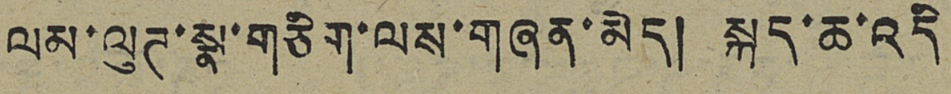ལམ་ལུཊ་སྣ་གཅིག་ལས་གཞན་མེད། སྐད་ཆ་འདི་
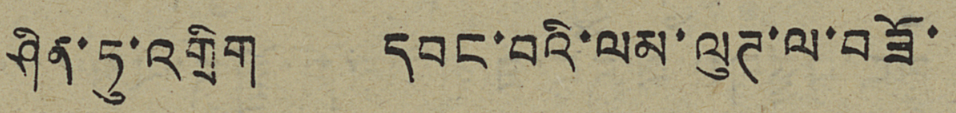ཤིན་ཏུ་འགྲིག དབང་བའི་ལམ་ལུཊ་ལ་བཟོ་
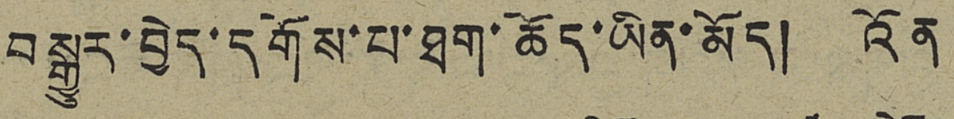བསྒྱུར་བྱེད་དགོས་པ་ཐག་ཆོད་ཡིན་མོད། འོན་
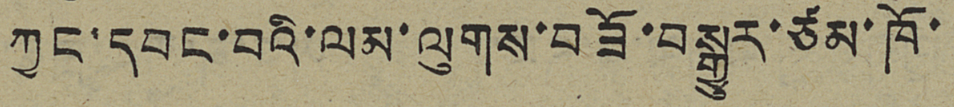ཀྱང་དབང་བའི་ལམ་ལུགས་བཟོ་བསྒྱུར་ཙམ་ཁོ་
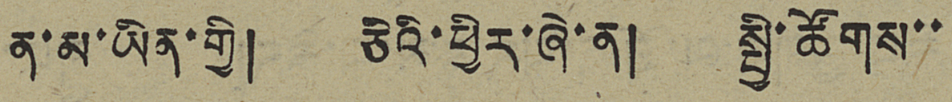ན་མ་ཡིན་གྱི། ཅིའི་ཕྱིར་ཞེ་ན། སྤྱི་ཚོགས་་
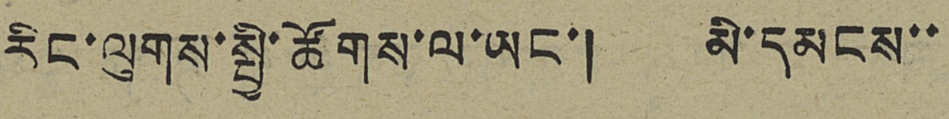རིང་ལུགས་སྤྱི་ཚོགས་ལ་ཡང་། མི་དམངས་་
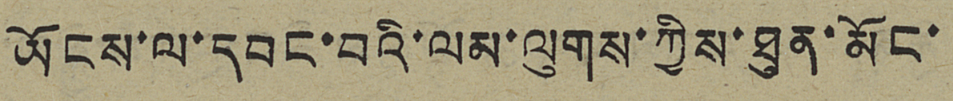ཡོངས་ལ་དབང་བའི་ལམ་ལུགས་ཀྱིས་ཐུན་མོང་
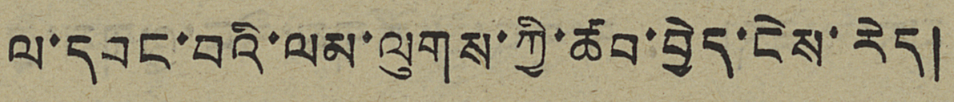ལ་དབང་བའི་ལམ་ལུགས་ཀྱི་ཚབ་བྱེད་ངེས་རེད།
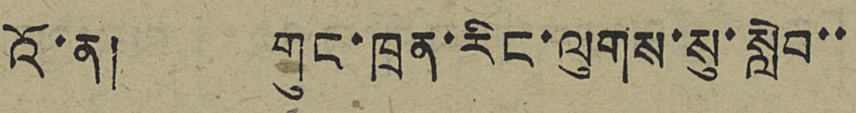འོ་ན། གུང་ཁྲན་རིང་ལུགས་སུ་སླེབ་་
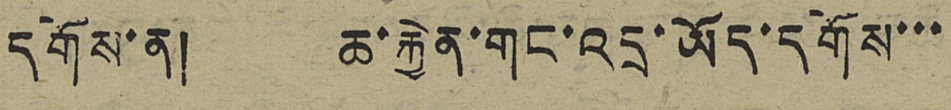དགོས་ན། ཆ་རྐྱེན་གང་འདྲ་ཡོད་དགོས་་་
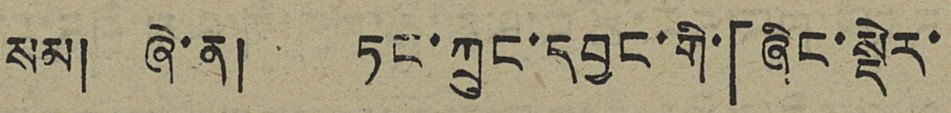སམ། ཞེ་ན། ཏང་ཀྲུང་དབྱང་གི་「ཞིང་སྡེར་
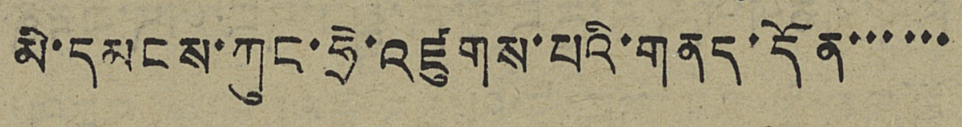མི་དམང་ཀུང་ཧྲེ་འཛུགས་པའི་གནད་དོན་་་་་་
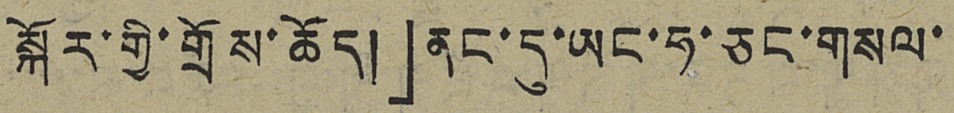སྐོར་གྱི་གྲོས་ཆོད།」ནང་དུ་ཡང་ཧ་ཅང་གསལ་
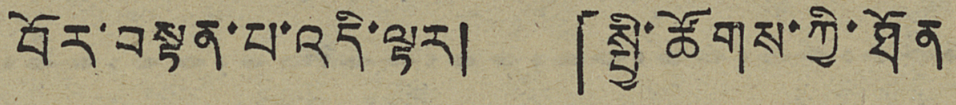བོར་བསྟན་པ་འདི་ལྟར། 「སྤྱི་ཚོགས་ཀྱི་ཐོན
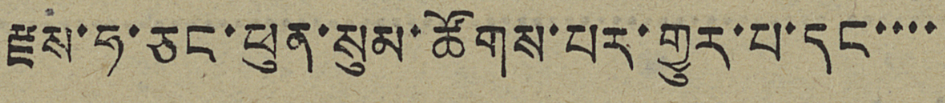རྫས་ཧ་ཅང་ཕུན་སུམ་ཚོགས་པར་གྱུར་པ་དང་་་་
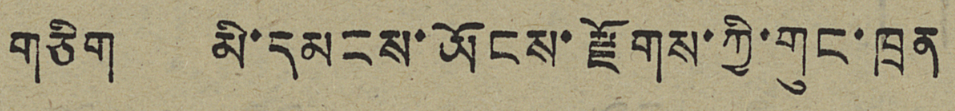གཅིག མི་དམངས་ཡོངས་རྫོགས་ཀྱི་གུང་ཁྲན
